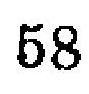58
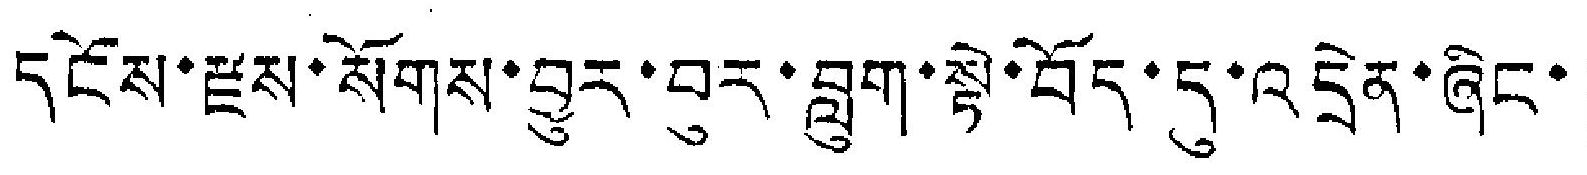དངོས་རྫས་སོགས་བྱུར་བར་བླག་སྟེ་བོད་དུ་འདྲེན་ཞིང་།
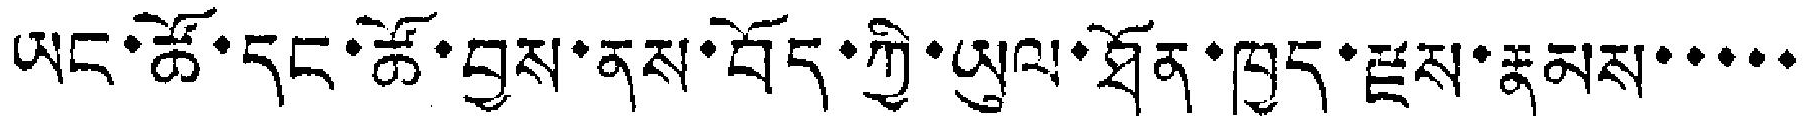ཡང་ཚོ་དང་ཚོ་བྱས་ནས་བོད་ཀྱི་ཡུལ་ཐོན་ཁྱད་རྫས་རྣམས་་་་་
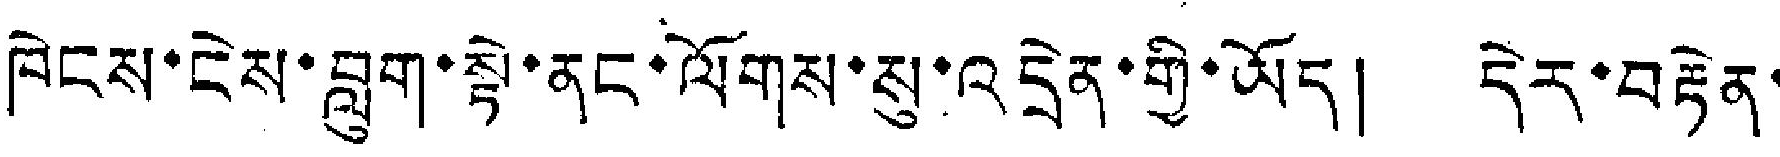ཁེངས་ངེས་བླུག་སྟེ་ནང་ལོགས་སུ་འདྲེན་གྱི་ཡོད། དེར་བརྟེན་
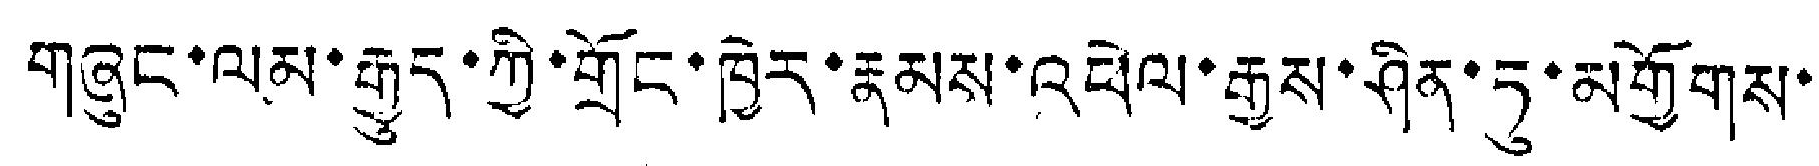གཞུང་ལམ་རྒྱུད་ཀྱི་གྲོང་ཁྱེར་རྣམས་འཕེལ་རྒྱུས་ཤིན་ཏུ་མགྱོགས་
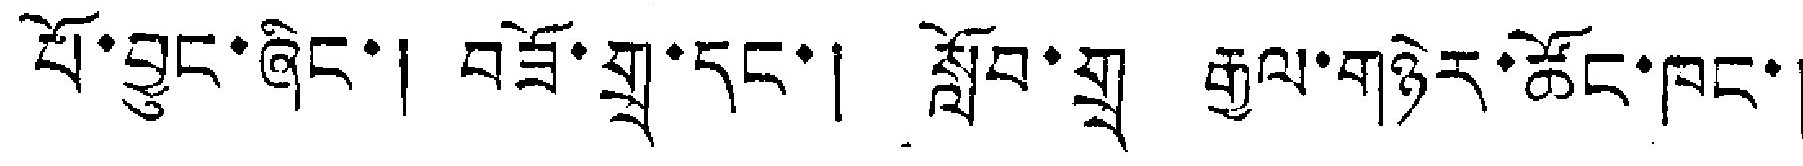པོ་བྱུང་ཞིང་། བཟོ་གྲྭ་དང་། སློབ་གྲྭ རྒྱལ་གཉེར་ཚོང་ཁང་།
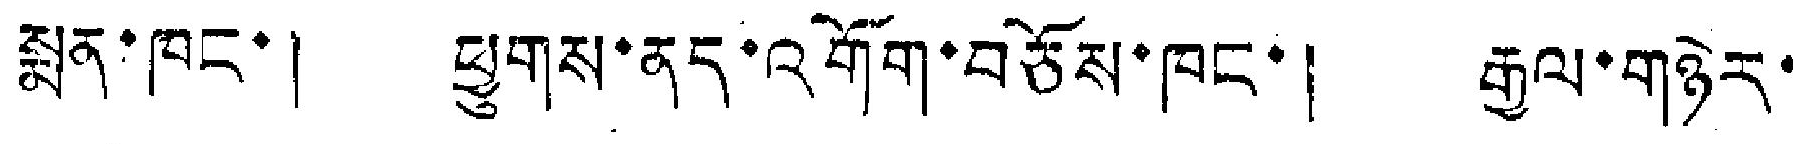སྨན་ཁང་། ཕྱུགས་ནད་འགོག་བཅོས་ཁང་། རྒྱལ་གཉེར་
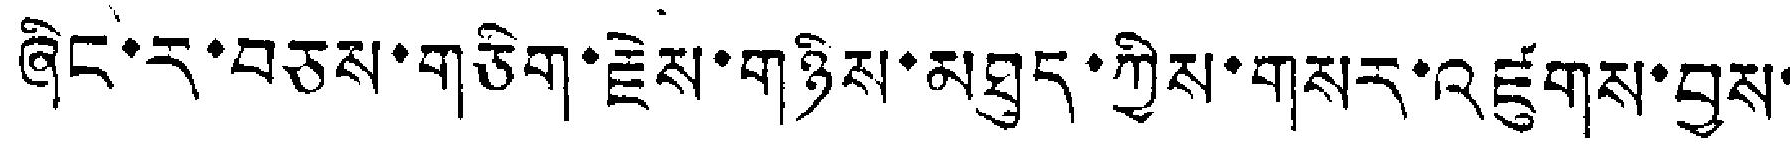ཞིང་ར་བཅས་གཅིག་རྗེས་གཉིས་མཐུད་ཀྱིས་གསར་འཛུགས་བྱས་
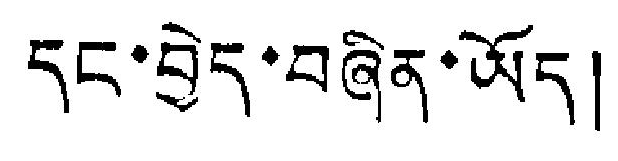དང་བྱེད་བཞིན་ཡོད།
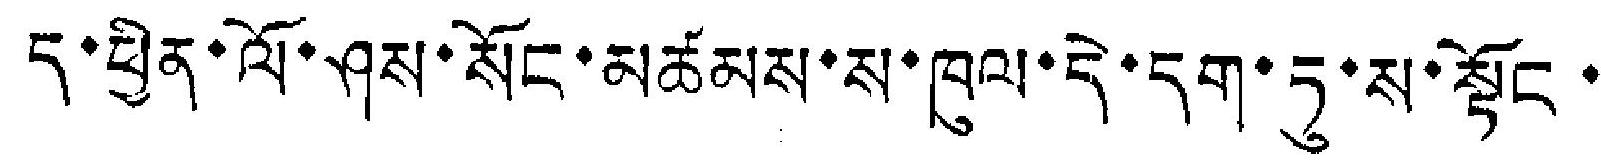ད་ཕྱིན་ལོ་ཤས་སོང་མཚམས་ས་ཁུལ་དེ་དག་ཏུ་ས་སྟོང་
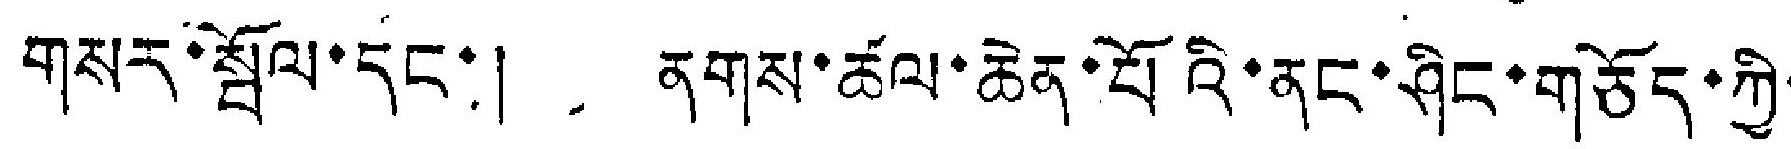གསར་སྦོལ་དང་། ནགས་ཚལ་ཆེན་པོའི་ནང་ཤིང་གཅོད་ཀྱི་
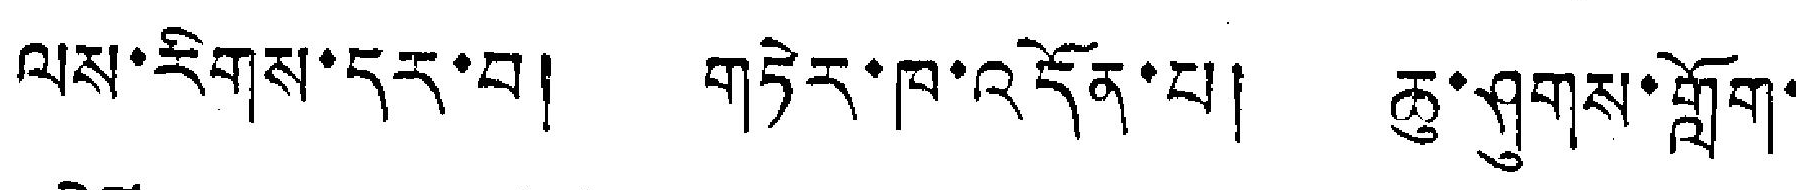ལས་རིགས་དར་བ། གཏེར་ཁ་འདོན་པ། ཆུ་ཤུགས་གློག་
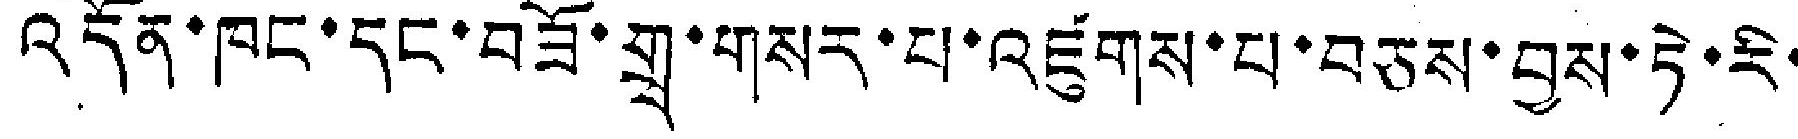འདོན་ཁང་དང་བཟོ་གྲྭ་གསར་པ་འཛུགས་པ་བཅས་བྱས་ཏེ་རི་
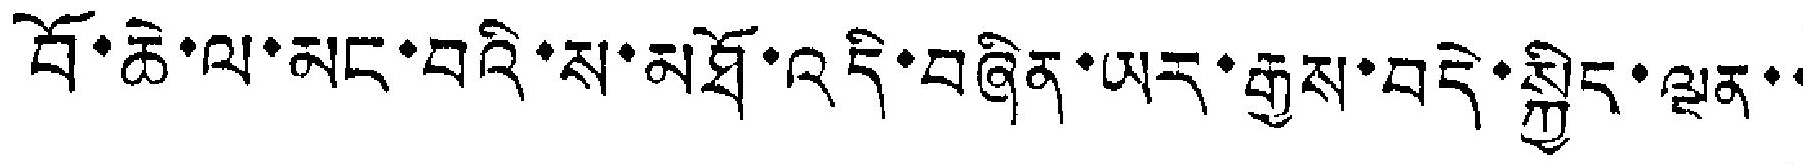བོ་ཆེ་ལ་མང་བའི་ས་མཐོ་འདི་བཞིན་ཡར་རྒྱས་བདེ་སྐྱིད་ལྡན་་
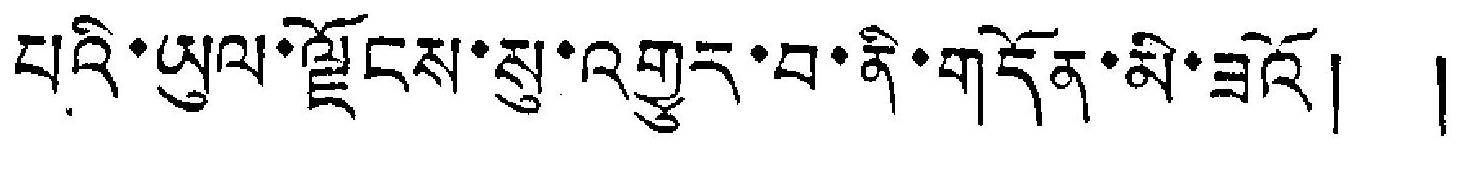པའི་ཡུལ་ལྗོངས་སུ་འགྱུར་བ་ནི་གདོན་མི་ཟའོ། །
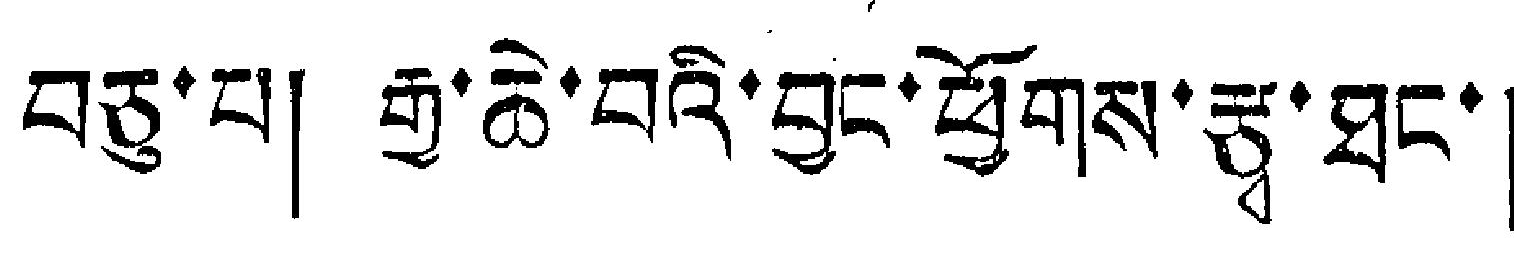བཅུ་པ། རྒྱ་ཆེ་བའི་བྱང་ཕྱོགས་རྩྭ་ཐང་།
